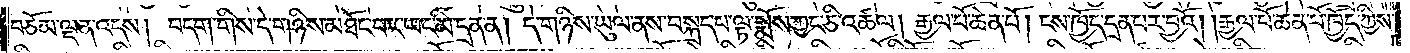བཅོམ་ལྡན་འདས། བདག་གིས་དེ་གཉིས་མཐོང་བར་ཡང་མི་དྲན་ན། དེ་གཉིས་ཡུལ་ནས་བསྐྲད་པ་ལྟ་སྨོས་ཀྱང་ཅི་འཚལ། རྒྱལ་པོ་ཆེན་པོ། ངས་ཁྱོད་དྲན་པར་བྱའོ། །རྒྱལ་པོ་ཆེན་པོ་ཁྱོད་ཀྱིས་
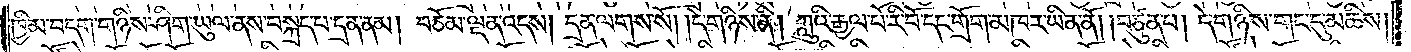ཁྱིམ་བདག་གཉིས་ཤིག་ཡུལ་ནས་བསྐྲད་པ་དྲན་ནམ། བཅོམ་ལྡན་འདས། དྲན་ལགས་སོ། །དེ་གཉིས་ནི། ཀླུའི་རྒྱལ་པོ་རི་པོ་དང་གྲོག་མཁར་ཡིན་ནོ། །བཙུན་པ། དེ་གཉིས་གང་དུ་མཆིས།
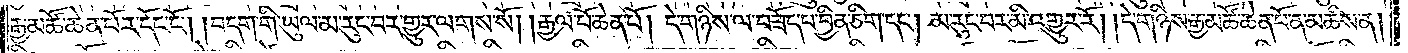རྒྱ་མཚོ་ཆེན་པོར་དོང་ངོ༌། །བདག་གི་ཡུལ་མ་རུང་བར་གྱུར་ལགས་སོ། །རྒྱལ་པོ་ཆེན་པོ། དེ་གཉིས་ལ་བཟོད་པ་བྱིན་ཅིག་དང༌། མ་རུང་བར་མི་འགྱུར་རོ། །དེ་གཉིས་རྒྱ་མཚོ་ཆེན་པོ་ན་མཆིས་ན།
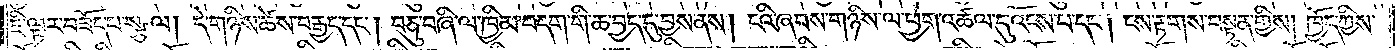ཇི་ལྟར་བཟོད་པ་སྩལ། དེ་གཉིས་ཚེས་བརྒྱད་དང༌། བཅུ་བཞི་ལ་ཁྱིམ་བདག་གི་ཆ་བྱད་དུ་བྱས་ནས། ངའི་ཞབས་གཉིས་ལ་ཕྱག་འཚལ་དུ་འོངས་པ་དང༌། ངས་རྟགས་བསྟན་གྱིས། ཁྱོད་ཀྱིས་
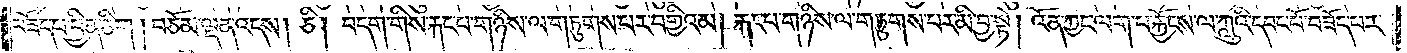བཟོད་པ་བྱིན་ཅིག །བཅོམ་ལྡན་འདས། ཅི། བདག་གིས་རྐང་པ་གཉིས་ལ་གཏུགས་པར་བགྱིའམ། རྐང་པ་གཉིས་ལ་གཏུགས་པར་མི་བྱ་སྟེ། འོན་ཀྱང་ལག་པ་རྐྱོངས་ལ་ཀླུའི་དབང་པོ་བཟོད་པར་
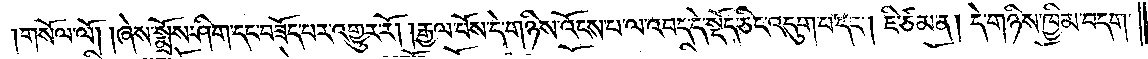གསོལ་ལོ། །ཞེས་སྨྲོས་ཤིག་དང་བཟོད་པར་འགྱུར་རོ། །རྒྱལ་པོས་དེ་གཉིས་འོངས་པ་ལ་འབད་དེ་སྡོད་ཅིང་འདུག་པ་དང༌། ཇི་ཙམ་ན། དེ་གཉིས་ཁྱིམ་བདག་
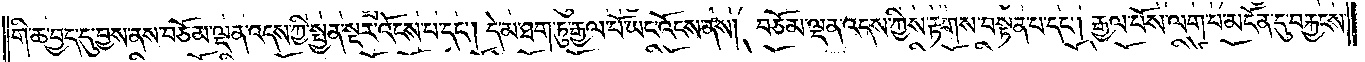གི་ཆ་བྱད་དུ་བྱས་ནས་བཅོམ་ལྡན་འདས་ཀྱི་སྤྱན་སྔར་འོངས་པ་དང༌། དེ་མ་ཐག་ཏུ་རྒྱལ་པོ་ཡང་འོངས་ནས། བཅོམ་ལྡན་འདས་ཀྱིས་རྟགས་བསྟན་པ་དང༌། རྒྱལ་པོས་ལག་པ་མངོན་དུ་བརྐྱངས་
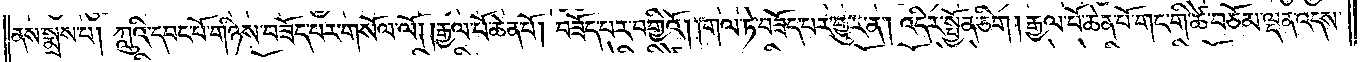ནས་སྨྲས་པ། ཀླུའི་དབང་པོ་གཉིས་བཟོད་པར་གསོལ་ལོ། །རྒྱལ་པོ་ཆེན་པོ། བཟོད་པར་བགྱིའོ། །གལ་ཏེ་བཟོད་པར་གྱུར་ན། འདིར་སྤྱོན་ཅིག །རྒྱལ་པོ་ཆེན་པོ་གང་གི་ཚེ་བཅོམ་ལྡན་འདས་
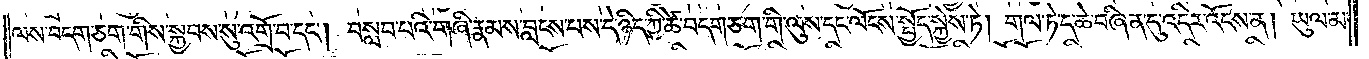ལས་བདག་ཅག་གིས་སྐྱབས་སུ་འགྲོ་བ་དང༌། བསླབ་པའི་གཞི་རྣམས་བླངས་པས་དེ་ཉིད་ཀྱི་ཚེ་བདག་ཅག་གི་ལུས་དང་ལོངས་སྤྱོད་སྐྱེས་ཏེ། གལ་ཏེ་ད་ཆེ་བཞིན་དུ་འདིར་འོངས་ན། ཡུལ་མ་
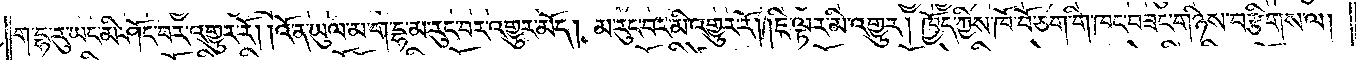ག་དྷ་རུ་ཡང་མི་ཤོང་བར་འགྱུར་རོ། །འོ་ན་ཡུལ་མ་ག་དྷ་མ་རུང་བར་འགྱུར་མོད། མ་རུང་བར་མི་འགྱུར་རོ། །ཇི་ལྟར་མི་འགྱུར། ཁྱོད་ཀྱིས་ཁོ་བོ་ཅག་གི་ཁང་བཟང་གཉིས་བརྩིགས་ལ།
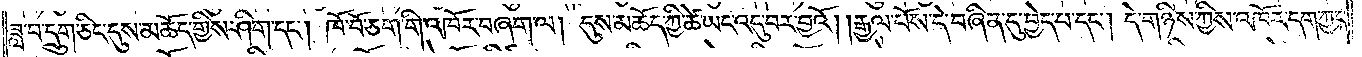ཟླ་བ་དྲུག་ཅིང་དུས་མཆོད་ཀྱིས་ཤིག་དང༌། ཁོ་བོ་ཅག་གི་འཁོར་བཞག་ལ། དུས་མཆོད་ཀྱི་ཚེ་ཡང་འདུ་བར་བྱའོ། །རྒྱལ་པོས་དེ་བཞིན་དུ་བྱེད་པ་དང༌། དེ་གཉིས་ཀྱིས་འཁོར་དག་ཀྱང་
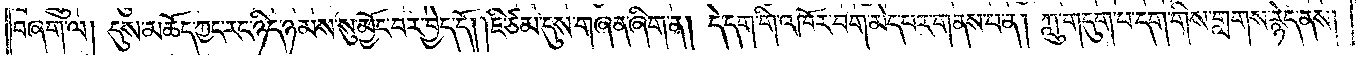བཞག་ལ། དུས་མཆོད་ཀྱང་རང་ཉིད་ཉམས་སུ་མྱོང་བར་བྱེད་དོ། །ཇི་ཙམ་དུས་གཞན་ཞིག་ན། དེ་དག་གི་འཁོར་བག་མེད་པར་གནས་པ་ན། ཀླུ་གདུག་པ་དག་གིས་གླགས་རྙེད་ནས།
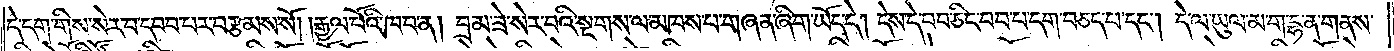དེ་དག་གིས་སེར་བ་དབབ་པར་བརྩམས་སོ། །རྒྱལ་པོའི་ཁབ་ན། བྲམ་ཟེ་སེར་བའི་སྔགས་ལ་མཁས་པ་གཞན་ཞིག་ཡོད་དེ། དེས་དེ་བབ་ཅིང་བབ་པ་དག་བཅད་པ་དང༌། དེ་ལ་ཡུལ་མ་ག་དྷ་ན་གནས་
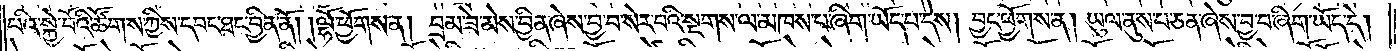པའི་སྐྱེ་བོའི་ཚོགས་ཀྱིས་དབང་ཐང་བྱིན་ནོ། །ལྷོ་ཕྱོགས་ན། བྲམ་ཟེ་མེས་བྱིན་ཞེས་བྱ་བ་སེར་བའི་སྔགས་ལ་མཁས་པ་ཞིག་ཡོད་པ་དེས། བྱང་ཕྱོགས་ན། ཡུལ་ནུས་པ་ཅན་ཞེས་བྱ་བ་ཞིག་ཡོད་དེ།
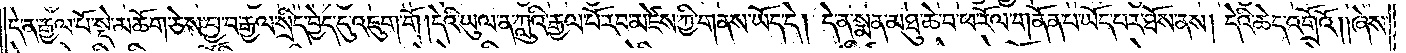དེ་ན་རྒྱལ་པོ་སྡེ་མཆོག་ཅེས་བྱ་བ་རྒྱལ་སྲིད་བྱེད་དུ་འཇུག་གོ །དེའི་ཡུལ་ན་ཀླུའི་རྒྱལ་པོ་རབ་མཛེས་ཀྱི་གནས་ཡོད་དེ། དེ་ན་སྨན་མཐུ་ཆེ་བ་ཕ་རོལ་གནོན་པ་ཡོད་པར་ཐོས་ནས། དེའི་ཆེད་འགྲོའོ། །ཞེས་
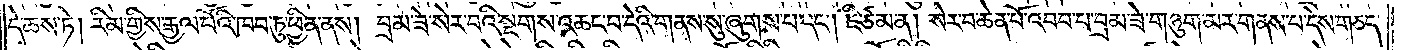དེ་ཆས་ཏེ། རིམ་གྱིས་རྒྱལ་པོའི་ཁབ་ཏུ་ཕྱིན་ནས། བྲམ་ཟེ་སེར་བའི་སྔགས་འཆང་བ་དེའི་གནས་སུ་ཞུགས་པ་དང༌། ཇི་ཙམ་ན། སེར་བ་ཆེན་པོ་འབབ་པ་བྲམ་ཟེ་གཉུག་མར་གནས་པ་དེས་གཅད་
